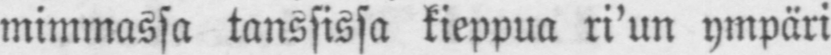mimmassa tanssissa kieppua ri'un ympäri
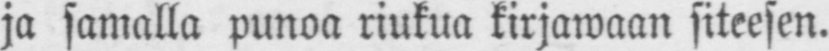ja samalla punoa riutua kirjawaan siteesen.
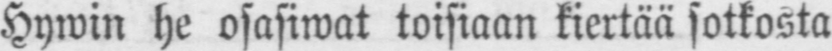Hywin he osasiwat toisiaan kiertää soitosta
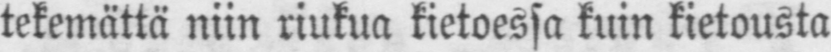tekemättä niin riukua kietoessa kuin kietousta
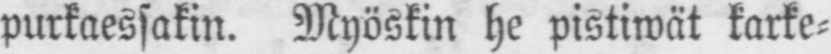purkaessakin. Myöskin he pistiwät karke-
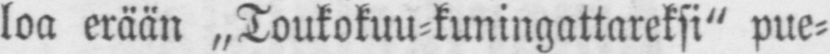loa erään „Toukokuu-kuningattareksi" pue-
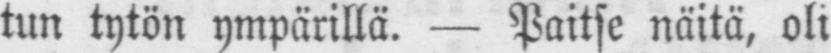tun tytön ympärillä. — Paitse näitä, oli
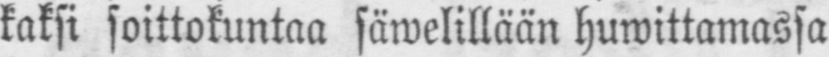kaksi soittokuntaa säwelillään huwittamassa
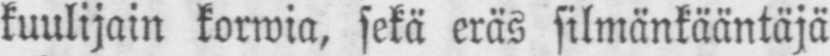kuulijoin korwia, sekä eräs silmänkääntäjä
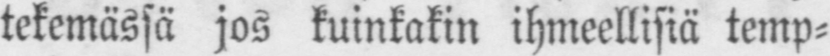tekemässä jos kuinkakin ihmeellisiä temp-
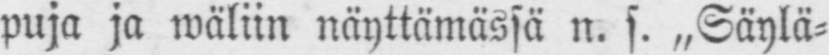puja ja wäliin näyttämässä n. s. „Säylä-
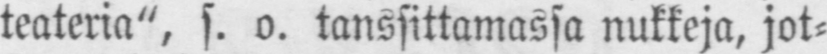teateria", s. o. tanssittamassa nukkeja, jot-
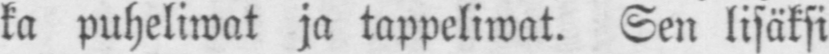ka puheliwat ja tappeliwat. Sen lisäksi
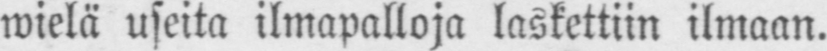wielä useita ilmapalloja laskettiin ilmaan.
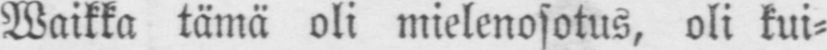Waikka tämä oli mielenosotus, oli kui-
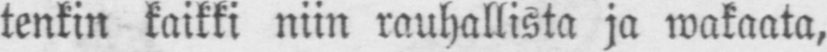tenkin kaikki niin rauhallista ja wakaata,
